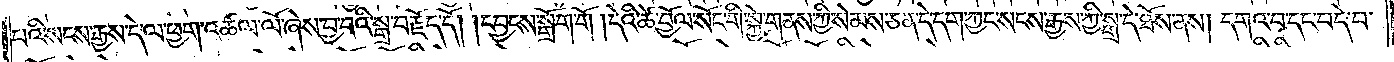པའི་སངས་རྒྱས་དེ་ལ་ཕྱག་འཚལ་ལོ་ཞེས་བྱ་བའི་སྒྲ་བརྗོད་དོ། །དབྱངས་སྒྲོག་གོ །དེའི་ཚེ་བྱོལ་སོང་གི་སྐྱེ་གནས་ཀྱི་སེམས་ཅན་དེ་དག་ཀྱང་སངས་རྒྱས་ཀྱི་སྒྲ་དེ་ཐོས་ནས། དགའ་བ་དང་བདེ་བ་
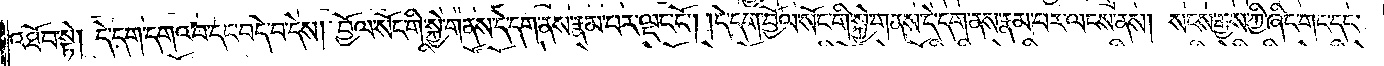འཐོབ་སྟེ། དེ་དག་དགའ་བ་དང་བདེ་བ་དེས། བྱོལ་སོང་གི་སྐྱེ་གནས་དེ་དག་ནས་རྣམ་པར་ལྡང་ངོ༌། །དེ་དག་བྱོལ་སོང་གི་སྐྱེ་གནས་དེ་དག་ནས་རྣམ་པར་ལངས་ནས། སངས་རྒྱས་ཀྱི་ཞིང་གང་དང་
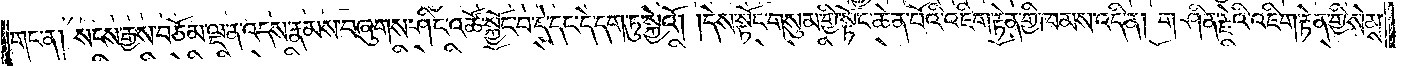གང་ན། སངས་རྒྱས་བཅོམ་ལྡན་འདས་རྣམས་བཞུགས་ཤིང་འཚོ་སྐྱོང་བ་དེ་དང་དེ་དག་ཏུ་སྐྱེའོ། །དེས་སྟོང་གསུམ་གྱི་སྟོང་ཆེན་པོའི་འཇིག་རྟེན་གྱི་ཁམས་འདི་ན། གཤིན་རྗེའི་འཇིག་རྟེན་གྱི་སེམས་
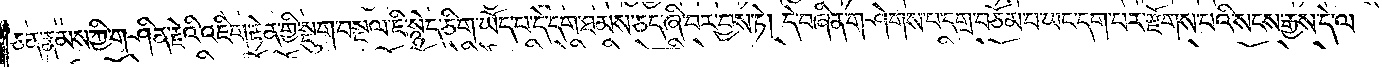ཅན་རྣམས་ཀྱི་གཤིན་རྗེའི་འཇིག་རྟེན་གྱི་སྡུག་བསྔལ་ཇི་སྙེད་ཅིག་ཡོད་པ་དེ་དག་ཐམས་ཅད་ཞི་བར་བྱས་ཏེ། དེ་བཞིན་གཤེགས་པ་དགྲ་བཅོམ་པ་ཡང་དག་པར་རྫོགས་པའི་སངས་རྒྱས་དེ་ལ་
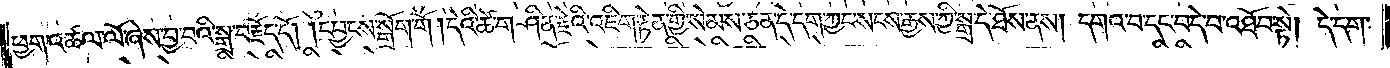ཕྱག་འཚལ་ལོ་ཞེས་བྱ་བའི་སྒྲ་བརྗོད་དོ། །དབྱངས་སྒྲོག་གོ །དེའི་ཚེ་གཤིན་རྗེའི་འཇིག་རྟེན་གྱི་སེམས་ཅན་དེ་དག་ཀྱང་སངས་རྒྱས་ཀྱི་སྒྲ་དེ་ཐོས་ནས། དགའ་བ་དང་བདེ་བ་འཐོབ་སྟེ། དེ་དག་
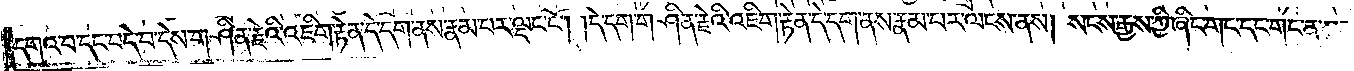དགའ་བ་དང་བདེ་བ་དེས་གཤིན་རྗེའི་འཇིག་རྟེན་དེ་དག་ནས་རྣམ་པར་ལྡང་ངོ༌། །དེ་དག་གཤིན་རྗེའི་འཇིག་རྟེན་དེ་དག་ནས་རྣམ་པར་ལངས་ནས། སངས་རྒྱས་ཀྱི་ཞིང་གང་དང་གང་ན་སངས་
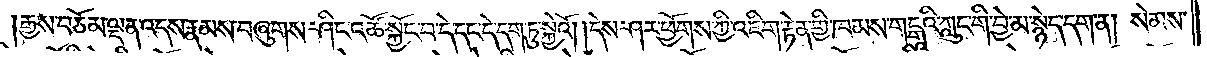རྒྱས་བཅོམ་ལྡན་འདས་རྣམས་བཞུགས་ཤིང་འཚོ་སྐྱོང་བ་དེ་དང་དེ་དག་ཏུ་སྐྱེའོ། །དེས་ཤར་ཕྱོགས་ཀྱི་འཇིག་རྟེན་གྱི་ཁམས་གངྒཱའི་ཀླུང་གི་བྱེ་མ་སྙེད་དག་ན། སེམས་
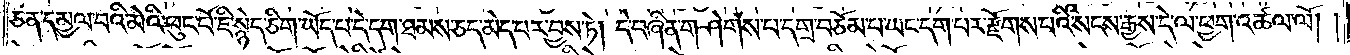ཅན་དམྱལ་བའི་མེའི་ཕུང་པོ་ཇི་སྙེད་ཅིག་ཡོད་པ་དེ་དག་ཐམས་ཅད་མེད་པར་བྱས་ཏེ། དེ་བཞིན་གཤེགས་པ་དགྲ་བཅོམ་པ་ཡང་དག་པར་རྫོགས་པའི་སངས་རྒྱས་དེ་ལ་ཕྱག་འཚལ་ལོ། །
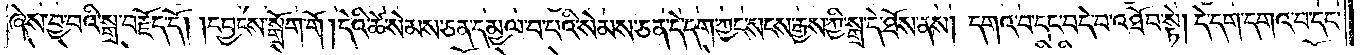ཞེས་བྱ་བའི་སྒྲ་བརྗོད་དོ། །དབྱངས་སྒྲོག་གོ །དེའི་ཚེ་སེམས་ཅན་དམྱལ་བ་པའི་སེམས་ཅན་དེ་དག་ཀྱང་སངས་རྒྱས་ཀྱི་སྒྲ་དེ་ཐོས་ནས། དགའ་བ་དང་བདེ་བ་འཐོབ་སྟེ། དེ་དག་དགའ་བ་དང་
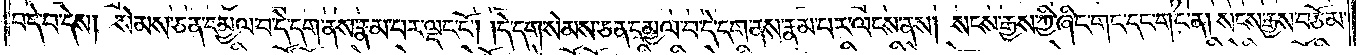བདེ་བ་དེས། སེམས་ཅན་དམྱལ་བ་དེ་དག་ནས་རྣམ་པར་ལྡང་ངོ༌། །དེ་དག་སེམས་ཅན་དམྱལ་བ་དེ་དག་ནས་རྣམ་པར་ལངས་ནས། སངས་རྒྱས་ཀྱི་ཞིང་གང་དང་གང་ན། སངས་རྒྱས་བཅོམ་
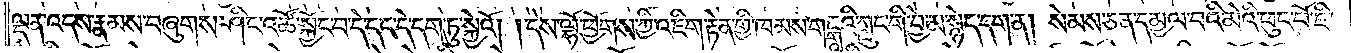ལྡན་འདས་རྣམས་བཞུགས་ཤིང་འཚོ་སྐྱོང་བ་དེ་དང་དེ་དག་ཏུ་སྐྱེའོ། །དེས་ལྷོ་ཕྱོགས་ཀྱི་འཇིག་རྟེན་གྱི་ཁམས་གངྒཱའི་ཀླུང་གི་བྱེ་མ་སྙེད་དག་ན། སེམས་ཅན་དམྱལ་བའི་མེའི་ཕུང་པོ་ཇི་
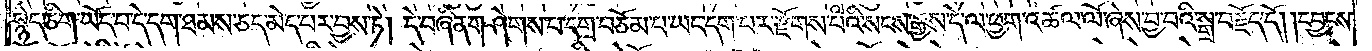སྙེད་ཅིག་ཡོད་པ་དེ་དག་ཐམས་ཅད་མེད་པར་བྱས་ཏེ། དེ་བཞིན་གཤེགས་པ་དགྲ་བཅོམ་པ་ཡང་དག་པར་རྫོགས་པའི་སངས་རྒྱས་དེ་ལ་ཕྱག་འཚལ་ལོ་ཞེས་བྱ་བའི་སྒྲ་བརྗོད་དོ། །དབྱངས་
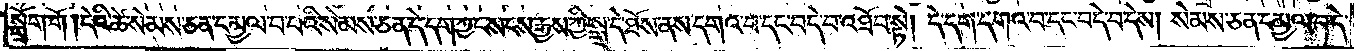སྒྲོག་གོ །དེའི་ཚེ་སེམས་ཅན་དམྱལ་བ་པའི་སེམས་ཅན་དེ་དག་ཀྱང་སངས་རྒྱས་ཀྱི་སྒྲ་དེ་ཐོས་ནས་དགའ་བ་དང་བདེ་བ་འཐོབ་སྟེ། དེ་དག་དགའ་བ་དང་བདེ་བ་དེས། སེམས་ཅན་དམྱལ་བ་དེ་
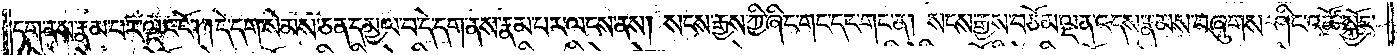དག་ནས་རྣམ་པར་ལྡང་ངོ༌། །དེ་དག་སེམས་ཅན་དམྱལ་བ་དེ་དག་ནས་རྣམ་པར་ལངས་ནས། སངས་རྒྱས་ཀྱི་ཞིང་གང་དང་གང་ན། སངས་རྒྱས་བཅོམ་ལྡན་འདས་རྣམས་བཞུགས་ཤིང་འཚོ་སྐྱོང་
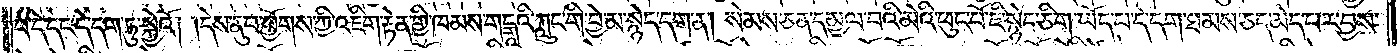བ་དེ་དང་དེ་དག་ཏུ་སྐྱེའོ། །དེས་ནུབ་ཕྱོགས་ཀྱི་འཇིགས་རྟེན་གྱི་ཁམས་གངྒཱའི་ཀླུང་གི་བྱེ་མ་སྙེད་དག་ན། སེམས་ཅན་དམྱལ་བའི་མེའི་ཕུང་པོ་ཇི་སྙེད་ཅིག་ཡོད་པ་དེ་དག་ཐམས་ཅད་མེད་པར་བྱས་
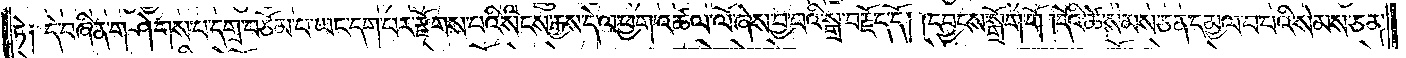ཏེ༑ དེ་བཞིན་གཤེགས་པ་དགྲ་བཅོམ་པ་ཡང་དག་པར་རྫོགས་པའི་སངས་རྒྱས་དེ་ལ་ཕྱག་འཚལ་ལོ་ཞེས་བྱ་བའི་སྒྲ་བརྗོད་དོ། །དབྱངས་སྒྲོག་གོ །དེའི་ཚེ་སེམས་ཅན་དམྱལ་བ་པའི་སེམས་ཅན་
